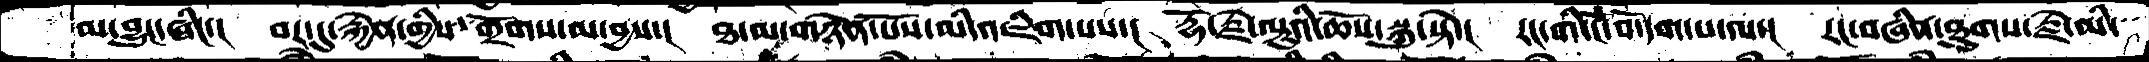མ་བྱུང་ཞིང་།  བར་དུ་རྐྱེན་གྱིས་གྲོགས་མ་བྱས་།  ཐ་མ་གཉེན་པོས་མི་འཇིག་པས་།  རྡོ་རྗེ་ལྟུའི་ཆོས་སྐུ་སྟེ་།  རང་གི་ངོ་བོ་དག་པ་ལ་།  རང་བཞིན་ཐུགས་རྗེ་མི་
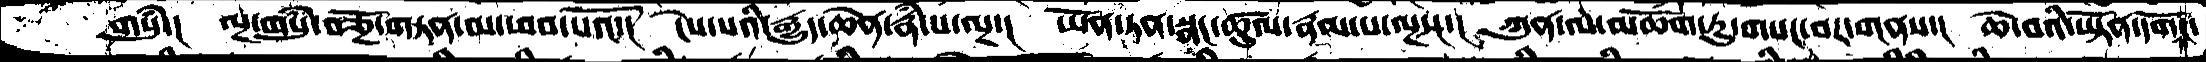གསུཾ་།  ལྔ་གསུཾ་བཅྔོ་གཏན་མ་ཕབ་པའོ་།  ངེས་པའི་རྒྱུད་ཆེན་རྣཾ་པ་ལྔ་།  ཡོན་ཏན་སྣང་ཚུལ་རྣམ་པ་ལྔས་།  ཀུན་ལ་མཆོག་ཏུ་གསང་བར་གནས་།  ཆེ་བའི་ཡྟོན་དགོང་
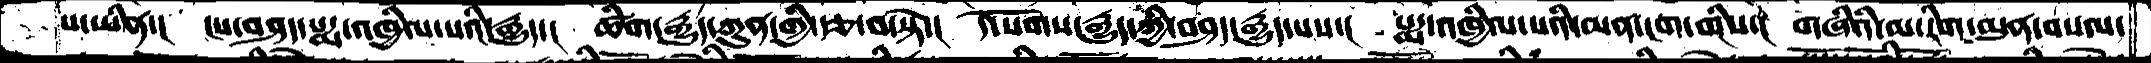པ་ཡིན་།  ངས་བཤད་པདྨ་འཁྱིལ་པའི་རྒྱུད་།  ཚིག་རྒྱུད་ཀུན་གྱི་རྩ་བ་སྟེ་།  དེ་སོགས་རྒྱུད་ཀྱི་བཤད་རྒྱུད་པས་།  པདྨ་འཁྱིལ་པའི་མན་ངག་གིས་།  གཞིའི་མ་རིག་མུན་བསལ་
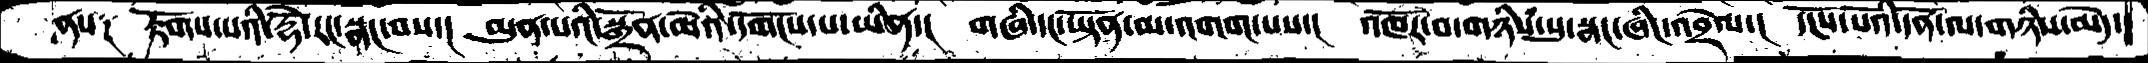ནས༑  རྟོགས་པའི་རྡོེ་རང་སྣང་བས་།  མུན་པའི་སྒྲོན་མེའི་དགོངས་པ་ཡིན་།  གཞི་དང་ཡྟོན་མ་འགག་པས་།  འཁོར་བ་གཉིས་སུ་སྣང་ཞིང་འབྲེལ་།  དངོས་པོའི་དོན་ལ་གཉིས་མེད་
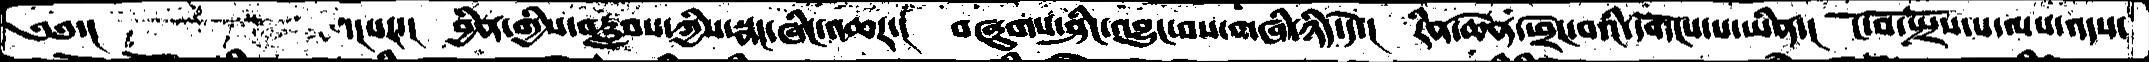༄༅་།       ་།པར་། བྱིན་གྱིས་བརླབས་ཀྱིས་སྣང་ཞིང་འཆར་། བཞུགས་ཤིང་འབྱུང་བས་གཞི་ཉིད་དེ་། རིན་ཆེན་ཕྲེང་བའི་དགོངས་པ་ཡིན་། ངོ་བོ་སྤྲོས་པ་ལས་འདས་
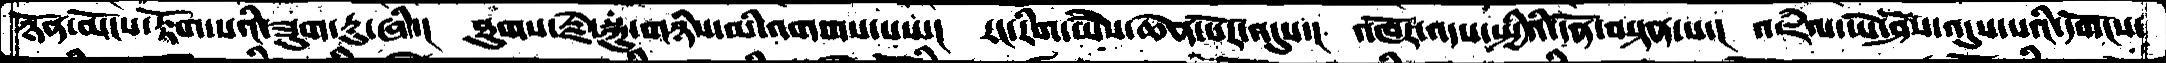ཉོན་མོངས་རྟོག་པའི་ཟུག་ཏུ་ཞི་།  ཐུགས་རྗེ་སྐུ་གཉིས་མི་འགགས་པས་།  རང་རིག་ཡཻས་ཆེན་པོར་འདུས་།  འཁོར་འདས་སྤྱིའི་དོན་བསྟན་པ་།  འཇཾལ་ཡེ་ཤེས་འདུས་པའི་དགོངས་
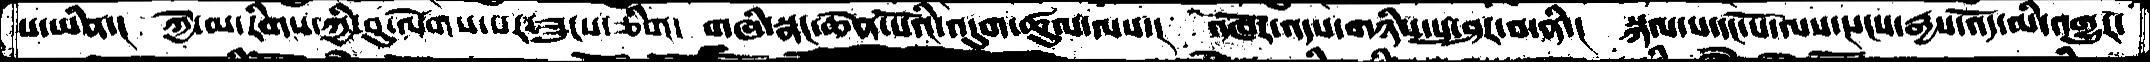པ་ཡིན་།  ཀྱེ་མ་རིགས་ཀྱི་བུ་ལེགས་པར་ཟུངས་ཅིག།  གཞི་སྣང་ཆེན་པོའི་འདུག་ཚུལ་ལས་།  འཁོར་འདས་གཉིས་སུ་ཤར་བ་ནི་།  སྐལ་པ་དང་པོོ་ལས་སངས་རྒྱས་འོད་མི་འགྱུར་
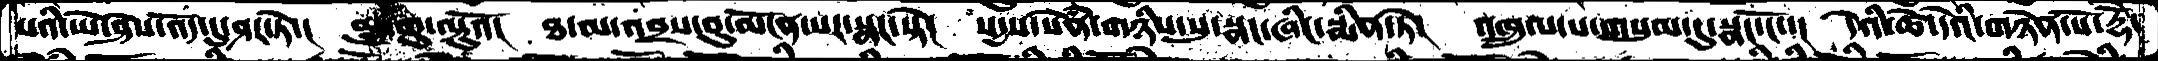པའི་ཡེ་ཤེས་འོད་དུ་ཤར་ཏེ་།  མྱུ་གུ་ལྟུའོ།  ཐ་མ་འབྲས་བུ་མོངན་པར་སྣང་སྟེ།  སདྱས་སེཾན་གཉིས་སུ་སྣང་ཞིང་སྨིན་ཏེ།  འཁྲུལ་པ་གསུམ་དུ་སྣང་ངོ་་།  དེའི་ཚེ་དེའི་གཉེན་པོ་རྡོེ་
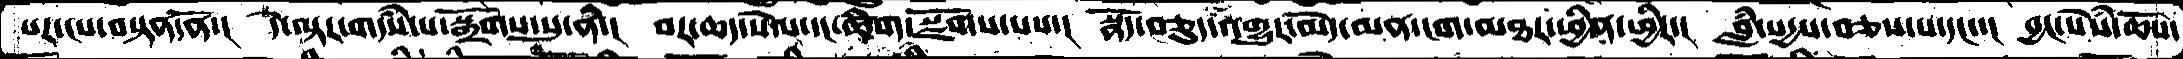པར་ངས་བསྟན་ནོ་།  དེ་ལྟར་གདཾས་པ་སྒྲོགས་སུ་ནི་།  བར་ཆད་སེལ་དང་ཚིག་སྫོགས་པས་།  སྣོད་བཅུད་འགྱུར་མེད་མན་ངག་མཐར་ཕྱིན་ཕྱིར་།   བླཾ་སདྱས་བཅས་པ་དང་་།   བྱང་སེསཾ་ཆོས་
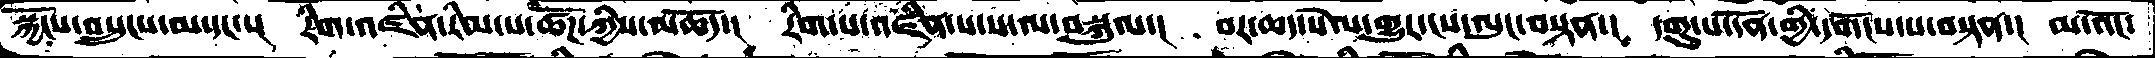སྐྱོངས་བསྲུངས་མ་དང་་།  རིག་འཛིན་རིམ་པ་ཚོཌ་ཀྱིས་མཆོད་།  རིག་པ་འཛིན་པ་ས་ལ་བསྐུལ་།  བར་ཆད་སེལ་གྱུར་ངས་ལུང་བསྟན་།  དགུ་པ་དོན་གྱི་དགོངས་པ་བསྟན་།  མ་འོང་
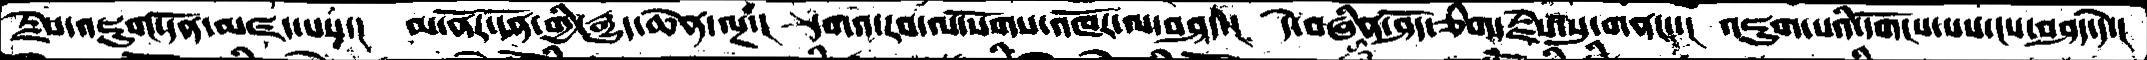རྗེས་འཇུག་དོན་མཛད་པས་།  མ་ནོར་དོན་གྱི་རྒྱུད་ཆེན་ལྔ་།  དགའ་རབ་ལ་སོགས་འཁོར་ལ་བཤད་།  དེ་བཞིན་ཤོད་ཅིག་རྗེས་སུ་གནང་་།  འཇུག་པའི་དགོངས་པས་ངས་བཤད་དེ་།
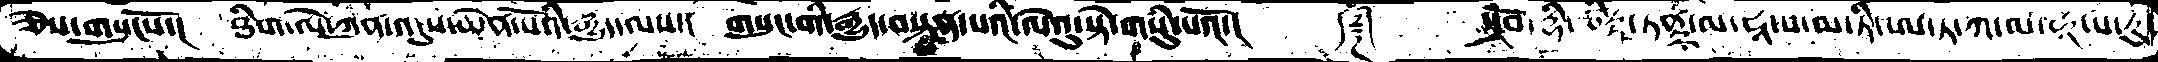ཅེས་གསུངསོ་།  ཐིག་ལེ་ཀུན་འདུས་ཆེན་པོའི་རྒྱུད་ལས་།  གསུང་གི་བསྟན་པའི་ལེའུ་སྟེ་གསུཾ་པའོ་།    ༼༈༽  སྟྲོབ་དྷི་ཙིཏྟ་ཏནྟྲ་མ་ཧཱ་ས་མ་ཏི་ཨ་ཏ་ཀ་མ་ཧཱ་ས་རུ་
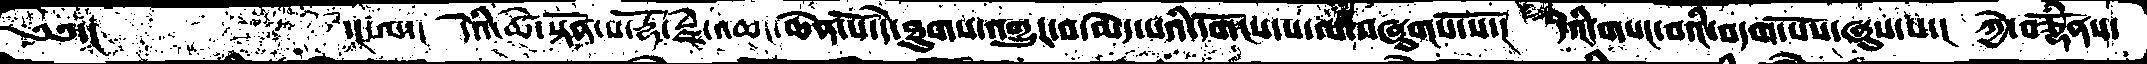༄༅་།       ་།ལ་།  དེའི་ཚེ་སྟོན་པ་རྡོ་རྗེ་འཆང་ཆེན་པོ་དེ་ཐུགས་འགྱུར་བ་མེད་པའི་དགོངས་་པ་ལ་བཞུགས་སོ་།  དེའི་གསང་བའི་བདག་པོས་ཞུས་པ་།  ཀྱེ་བཅྡོཾནས་
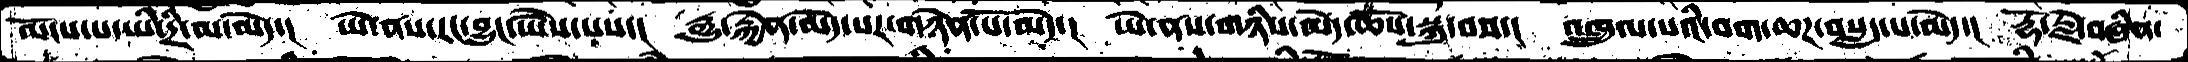མོངས་པ་ཡི་དྲི་མ་མེད་།  ཡེ་ནས་རང་བྱུང་ཡཻས་པས་།  རྒྱུ་རྐྱེན་མེད་པར་གཉེན་པོ་མེད་།  ཡེ་ནས་གཉིས་མེད་ཆོས་སྐུ་བས་།  འཁྲུལ་པའི་བག་ཆཌ་བསླད་པ་མེད་།  རྡོ་རྗེ་བཞིན་
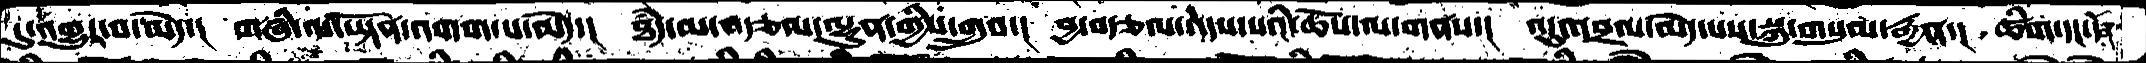དུ་འགྱུར་བ་མེད་།  གཞི་ལ་ཡྟོན་འགག་པ་མེད་།  ཐདཾ་མ་བརྩལ་ལྷུན་གྱིས་གྲུབ་།  བྱ་བརྩལ་འདས་པའི་ཆོས་ལ་གནས་།  འདུ་འབྲལ་མེད་པས་སྐུ་གསུམ་རྒྱན་།  ཚིག་དང་དོན
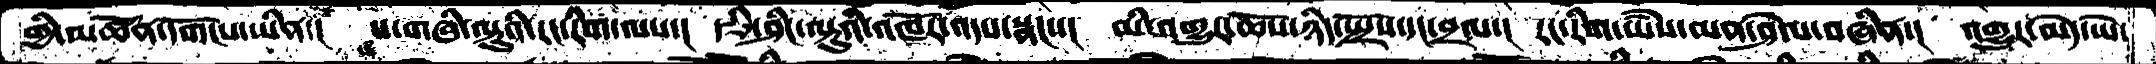གྱི་མཚོན་དགོངས་ཡིན་།  ས་གཞི་ལྟུའི་རང་རིག་ལས་།  རྩི་ཤིང་ལྟུའི་འཁོར་འདས་སྣང་་།  མི་འགྱུར་ཆོས་ཉིད་སྤྲོས་དང་བྲལ་།  རང་རིག་ཡཻས་མན་ཤེལ་བཞིན་།  འགྱུར་མེད་ཡེ་
